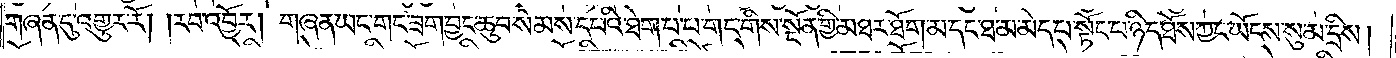གཞན་དུ་འགྱུར་རོ། །རབ་འབྱོར། གཞན་ཡང་གང་ཟག་བྱང་ཆུབ་སེམས་དཔའི་ཐེག་པ་པ་གང་གིས་སྔོན་གྱི་མཐར་ཐོག་མ་དང་ཐ་མ་མེད་པ་སྟོང་པ་ཉིད་ཐོས་ཀྱང་ཡོངས་སུ་མ་དྲིས།
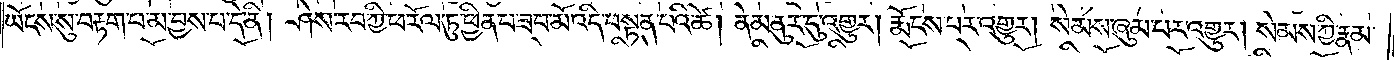ཡོངས་སུ་བརྟག་པ་མ་བྱས་པ་དེ་ནི། ཤེས་རབ་ཀྱི་ཕ་རོལ་ཏུ་ཕྱིན་པ་ཟབ་མོ་འདི་བསྟན་པའི་ཚེ། ནེམ་ནུར་དུ་འགྱུར། རྨོངས་པར་འགྱུར། སེམས་ཞུམ་པར་འགྱུར། སེམས་ཀྱི་རྣམ་
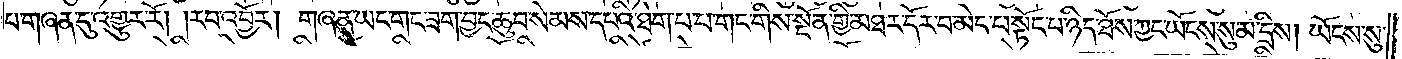པ་གཞན་དུ་འགྱུར་རོ། །རབ་འབྱོར། གཞན་ཡང་གང་ཟག་བྱང་ཆུབ་སེམས་དཔའི་ཐེག་པ་པ་གང་གིས་སྔོན་གྱིས་མཐར་དོར་བ་མེད་པ་སྟོང་པ་ཉིད་ཐོས་ཀྱང་ཡོངས་སུ་མ་དྲིས། ཡོངས་སུ་
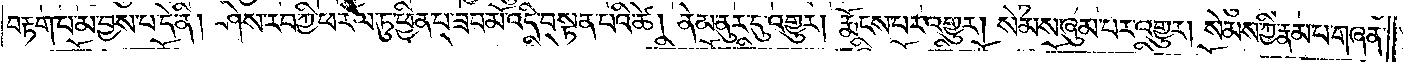བརྟག་པ་མ་བྱས་པ་དེ་ནི། ཤེས་རབ་ཀྱི་ཕ་རོལ་ཏུ་ཕྱིན་པ་ཟབ་མོ་འདི་བསྟན་པའི་ཚེ། ནེམ་ནུར་དུ་འགྱུར། རྨོངས་པར་འགྱུར། སེམས་ཞུམ་པར་འགྱུར། སེམས་ཀྱི་རྣམ་པ་གཞན་
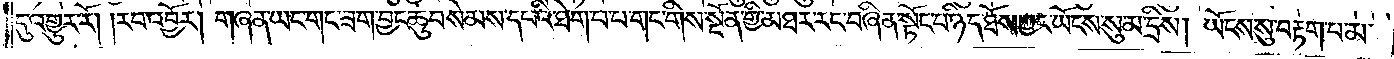དུ་འགྱུར་རོ། །རབ་འབྱོར། གཞན་ཡང་གང་ཟག་བྱང་ཆུབ་སེམས་དཔའི་ཐེག་པ་པ་གང་གིས་སྔོན་གྱི་མཐར་རང་བཞིན་སྟོང་པ་ཉིད་ཐོས་ཀྱང་ཡོངས་སུ་མ་དྲིས། ཡོངས་སུ་བརྟག་པ་མ་
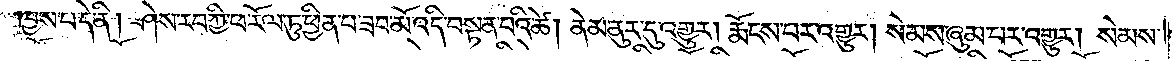བྱས་པ་དེ་ནི། ཤེས་རབ་ཀྱི་ཕ་རོལ་ཏུ་ཕྱིན་པ་ཟབ་མོ་འདི་བསྟན་པའི་ཚེ། ནེམ་ནུར་དུ་འགྱུར། རྨོངས་པར་འགྱུར། སེམས་ཞུམ་པར་འགྱུར། སེམས་
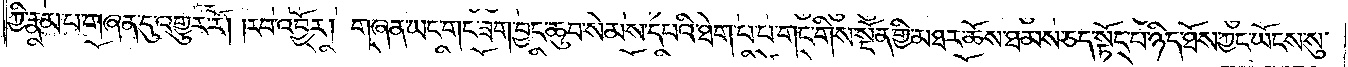ཀྱི་རྣམ་པ་གཞན་དུ་འགྱུར་རོ། །རབ་འབྱོར། གཞན་ཡང་གང་ཟག་བྱང་ཆུབ་སེམས་དཔའི་ཐེག་པ་པ་གང་གིས་སྔོན་གྱི་མཐར་ཆོས་ཐམས་ཅད་སྟོང་པ་ཉིད་ཐོས་ཀྱང་ཡོངས་སུ་
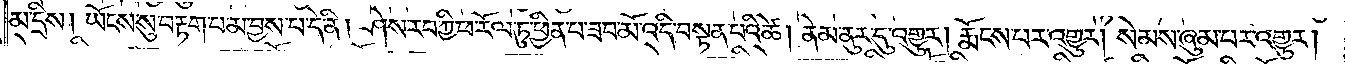མ་དྲིས། ཡོངས་སུ་བརྟག་པ་མ་བྱས་པ་དེ་ནི། ཤེས་རབ་ཀྱི་ཕ་རོལ་ཏུ་ཕྱིན་པ་ཟབ་མོ་འདི་བསྟན་པའི་ཚེ། ནེམ་ནུར་དུ་འགྱུར། རྨོངས་པར་འགྱུར། སེམས་ཞུམ་པར་འགྱུར།
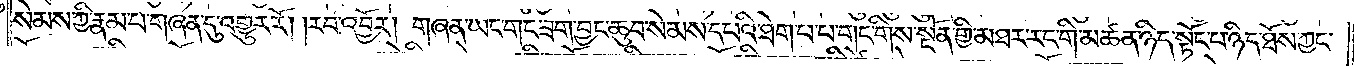སེམས་ཀྱི་རྣམ་པ་གཞན་དུ་འགྱུར་རོ། །རབ་འབྱོར། གཞན་ཡང་གང་ཟག་བྱང་ཆུབ་སེམས་དཔའི་ཐེག་པ་པ་གང་གིས་སྔོན་གྱི་མཐར་རང་གི་མཚན་ཉིད་སྟོང་པ་ཉིད་ཐོས་ཀྱང་
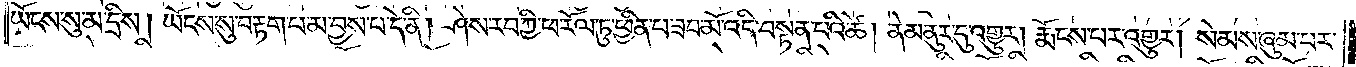ཡོངས་སུ་མ་དྲིས། ཡོངས་སུ་བརྟག་པ་མ་བྱས་པ་དེ་ནི། ཤེས་རབ་ཀྱི་ཕ་རོལ་ཏུ་ཕྱིན་པ་ཟབ་མོ་འདི་བསྟན་པའི་ཚེ། ནེམ་ནུར་དུ་འགྱུར། རྨོངས་པར་འགྱུར། སེམས་ཞུམ་པར་
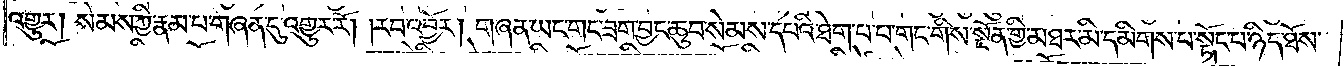འགྱུར། སེམས་ཀྱི་རྣམ་པ་གཞན་དུ་འགྱུར་རོ། །རབ་འབྱོར། གཞན་ཡང་གང་ཟག་བྱང་ཆུབ་སེམས་དཔའི་ཐེག་པ་པ་གང་གིས་སྔོན་གྱི་མཐར་མི་དམིགས་པ་སྟོང་པ་ཉིད་ཐོས་
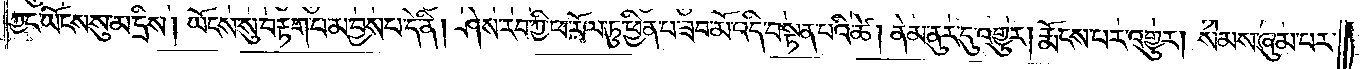ཀྱང་ཡོངས་སུ་མ་དྲིས། ཡོངས་སུ་བརྟག་པ་མ་བྱས་པ་དེ་ནི། ཤེས་རབ་ཀྱི་ཕ་རོལ་ཏུ་ཕྱིན་པ་ཟབ་མོ་འདི་བསྟན་པའི་ཚེ། ནེམ་ནུར་དུ་འགྱུར། རྨོངས་པར་འགྱུར། སེམས་ཞུམ་པར་
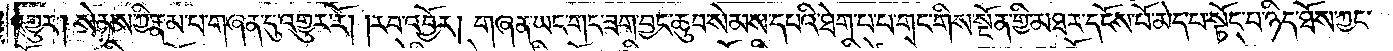འགྱུར། སེམས་ཀྱི་རྣམ་པ་གཞན་དུ་འགྱུར་རོ། །རབ་འབྱོར། གཞན་ཡང་གང་ཟག་བྱང་ཆུབ་སེམས་དཔའི་ཐེག་པ་པ་གང་གིས་སྔོན་གྱི་མཐར་དངོས་པོ་མེད་པ་སྟོང་པ་ཉིད་ཐོས་ཀྱང་
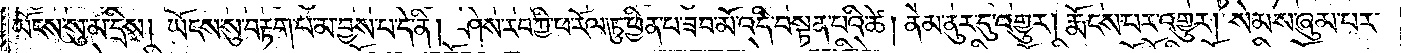ཡོངས་སུ་མ་དྲིས། ཡོངས་སུ་བརྟག་པ་མ་བྱས་པ་དེ་ནི། ཤེས་རབ་ཀྱི་ཕ་རོལ་ཏུ་ཕྱིན་པ་ཟབ་མོ་འདི་བསྟན་པའི་ཚེ། ནེམ་ནུར་དུ་འགྱུར། རྨོངས་པར་འགྱུར། སེམས་ཞུམ་པར་
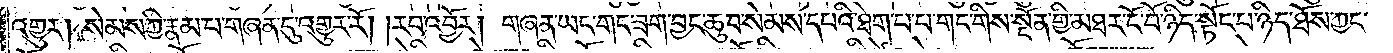འགྱུར། སེམས་ཀྱི་རྣམ་པ་གཞན་དུ་འགྱུར་རོ། །རབ་འབྱོར། གཞན་ཡང་གང་ཟག་བྱང་ཆུབ་སེམས་དཔའི་ཐེག་པ་པ་གང་གིས་སྔོན་གྱི་མཐར་ངོ་བོ་ཉིད་སྟོང་པ་ཉིད་ཐོས་ཀྱང་
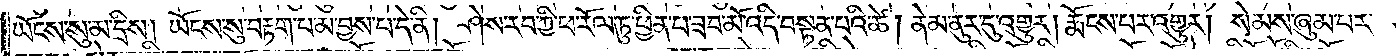ཡོངས་སུ་མ་དྲིས། ཡོངས་སུ་བརྟག་པ་མ་བྱས་པ་དེ་ནི། ཤེས་རབ་ཀྱི་ཕ་རོལ་ཏུ་ཕྱིན་པ་ཟབ་མོ་འདི་བསྟན་པའི་ཚེ། ནེམ་ནུར་དུ་འགྱུར། རྨོངས་པར་འགྱུར། སེམས་ཞུམ་པར་
